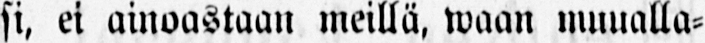si, ei ainoastaan meillä, waan muualla-
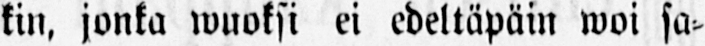kin, jonka wuoksi ei edeltäpäin woi sa-
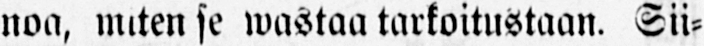noa, miten se wastaa tarkoitustaan. Sii-
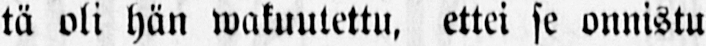tä oli hän wakuulettu, ettei se onnistu
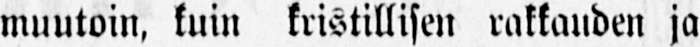muutoin, kuin kristillisen rakkauden ja
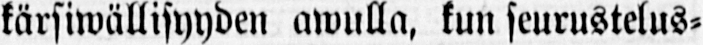kärsiwällisyyden awulla, kun seurustelus-
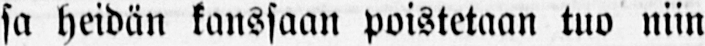sa heidän kanssaan poistetaan tuo niin
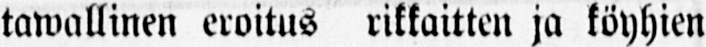tawallinen eroitus rikkaitten ja köyhien
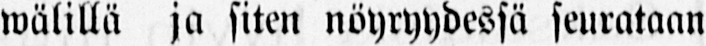wälillä ja siten nöyryydessä seurataan
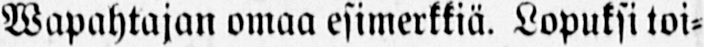Wapahtajan omaa esimerkkiä. Lopuksi toi-
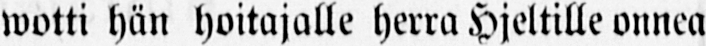wotti hän hoitajalle herra Hjeltille onnea
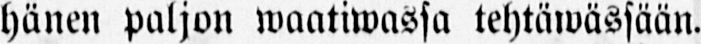hänen paljon waatiwassa tehtäwässään.
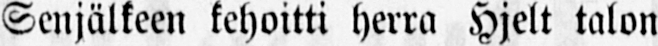Senjälkeen kehoitti herra Hjelt talon
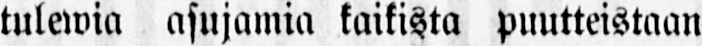tulewia asujamia kaikista puutteistaan
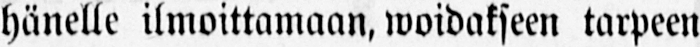hänelle ilmoittamaan, woidakseen tarpeen
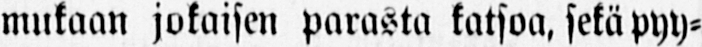mukaan jokaisen parasta katsoa, sekä pyy-
